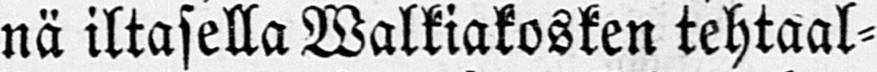nä iltasella Walkiakosken tehtaal-
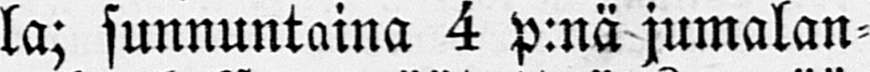la; sunnuntaina 4 p:nä jumalan-
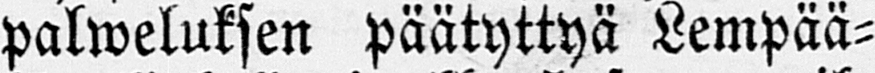palweluksen päätyttyä Lempää-
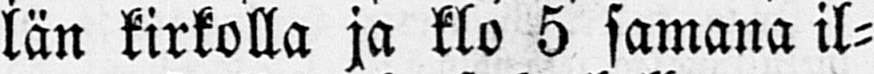län kirkolla ja klo 5 samana il-
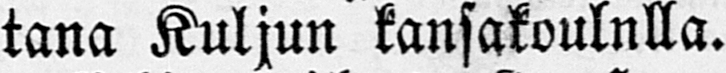tana Kuljun kansakoulnlla.
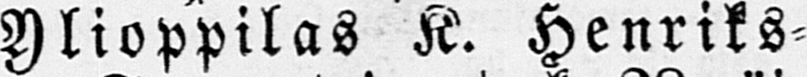Ylioppilas K. Henriks-
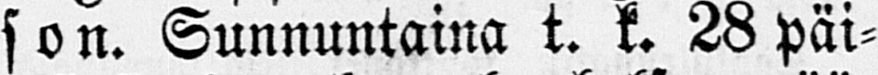son. Sunnuntaina t. k. 28 päi-
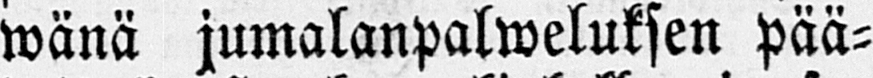wänä jumalanpalweluksen pää-
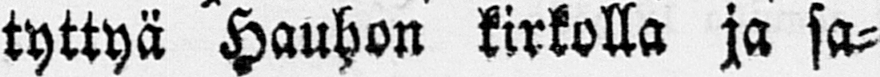tyttyä Hauhon kirkolla ja sa-
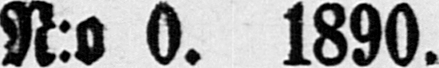N:o 0. 1890.
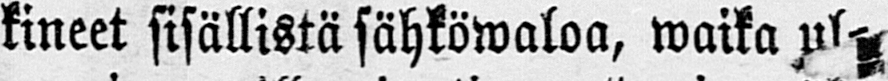kineet sisällistä sähköwaloa, waika ul-
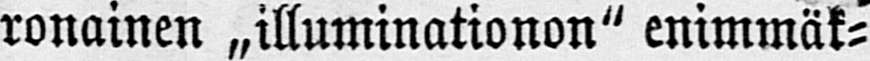ronainen „illuminationon" enimmäk-
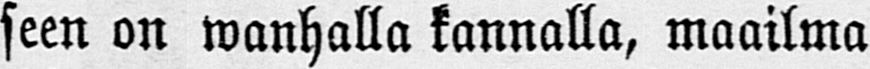seen on wanhalla kannalla, maailma
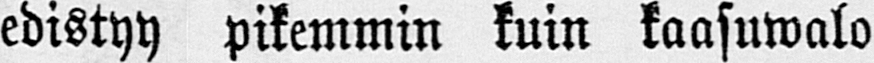edistyy pikemmin kuin kaasuwalo
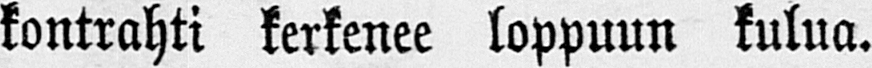kontrahti kerkenee loppuun kulua.
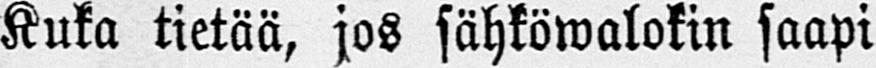Kuka tietää, jos sähköwalokin saapi
